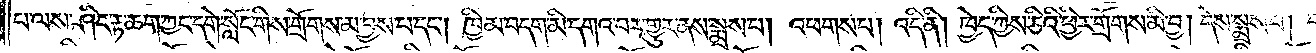པ་ལས་ཤིང་རྟ་ཆག་ཀྱང་དགེ་སློང་གིས་གྲོགས་མ་བྱས་པ་དང༌། ཁྱིམ་བདག་མི་དགའ་བར་གྱུར་ནས་སྨྲས་པ། འཕགས་པ། འདི་ནི། ཁྱེད་ཀྱིས་ཅིའི་ཕྱིར་གྲོགས་མི་བྱ། དེས་སྨྲས་པ། བཅོམ་ལྡན་
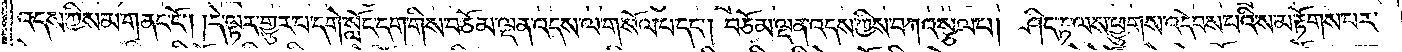འདས་ཀྱིས་མ་གནང་ངོ༌། །དེ་ལྟར་གྱུར་པ་དགེ་སློང་དག་གིས་བཅོམ་ལྡན་འདས་ལ་གསོལ་པ་དང༌། བཅོམ་ལྡན་འདས་ཀྱིས་བཀའ་སྩལ་པ། ཤིང་རྟ་ལས་ཕྱུགས་འདེབས་པའི་ས་མ་རྟོགས་པར་
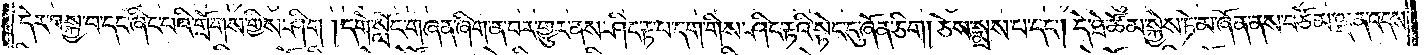དེར་བསྐྱ་བ་དང་ཞིང་པའི་གྲོགས་གྱིས་ཤིག །དགེ་སློང་གཞན་ཞིག་ན་བར་གྱུར་ནས་ཤིང་རྟ་པ་དག་གིས་ཤིང་རྟའི་སྟེང་དུ་ཞོན་ཅིག། ཅེས་སྨྲས་པ་དང༌། དེ་ཐེ་ཚོམ་སྐྱེས་ཏེ་མ་ཞོན་ནས་བཅོམ་ལྡན་འདས་
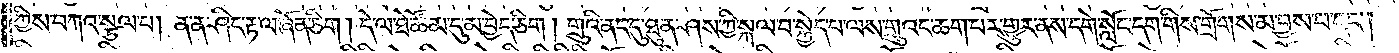ཀྱིས་བཀའ་སྩལ་པ། ན་ན་ཤིང་རྟ་ལ་ཞོན་ཅིག །དེ་ལ་ཐེ་ཚོམ་དུ་མ་བྱེད་ཅིག །གྲུའི་ནང་དུ་ཐུན་ཤས་ཀྱི་སྐལ་བ་སྐྱེད་པ་ལས་གྲུའང་ཆག་པར་གྱུར་ནས་དགེ་སློང་དག་གིས་གྲོགས་མ་བྱས་པ་དང༌།
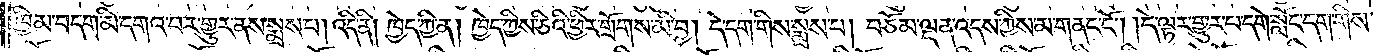ཁྱིམ་བདག་མི་དགའ་བར་གྱུར་ནས་སྨྲས་པ། འདི་ནི། ཁྱེད་ཀྱི་ན། ཁྱེད་ཀྱིས་ཅིའི་ཕྱིར་གྲོགས་མི་བྱ། དེ་དག་གིས་སྨྲས་པ། བཅོམ་ལྡན་འདས་ཀྱིས་མ་གནང་ངོ༌། །དེ་ལྟར་གྱུར་པ་དགེ་སློང་དག་གིས་
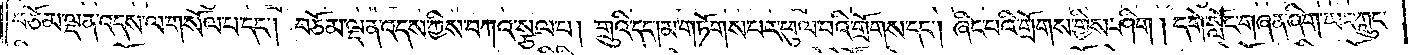བཅོམ་ལྡན་འདས་ལ་གསོལ་པ་དང༌། བཅོམ་ལྡན་འདས་ཀྱིས་བཀའ་སྩལ་པ། གྲུའི་དང༌། མ་གཏོགས་པར་ཕུལ་བའི་གྲོགས་དང༌། ཞིང་པའི་གྲོགས་གྱིས་ཤིག །དགེ་སློང་གཞན་ཞིག་ཡང་ཀླུང་
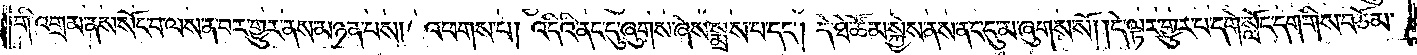གི་འགྲམ་ནས་སོང་བ་ལས་ན་བར་གྱུར་ནས་མཉན་པས། འཕགས་པ། འདིའི་ནང་དུ་ཞུགས་ཞེས་སྨྲས་པ་དང༌། དེ་ཐེ་ཚོམ་སྐྱེས་ནས་ནང་དུ་མ་ཞུགས་སོ། །དེ་ལྟར་གྱུར་བ་དགེ་སློང་དག་གིས་བཅོམ་
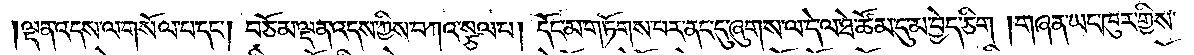ལྡན་འདས་ལ་གསོལ་པ་དང༌། བཅོམ་ལྡན་འདས་ཀྱིས་བཀའ་སྩལ་པ། དོང་མ་གཏོགས་པར་ནང་དུ་ཞུགས་ལ་དེ་ལ་ཐེ་ཚོམ་དུ་མ་བྱེད་ཅིག །གཞན་ཡང་ཁུར་གྱིས་
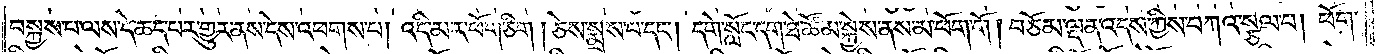བསྐྱས་པ་ལས་དེ་ཆད་པར་གྱུར་ནས་དེས་འཕགས་པ། འདི་མར་ཕོག་ཅིག །ཅེས་སྨྲས་པ་དང༌། དགེ་སློང་དག་ཐེ་ཚོམ་སྐྱེས་ནས་མ་ཕོག་གོ། བཅོམ་ལྡན་འདས་ཀྱིས་བཀའ་སྩལ་པ། ཕོག་
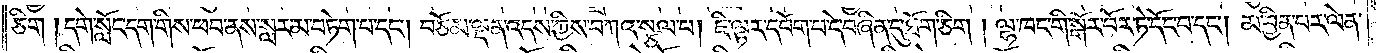ཅིག །དགེ་སློང་དག་གིས་ཕབ་ནས་སླར་མ་བཏེག་པ་དང༌། བཅོམ་ལྡན་འདས་ཀྱིས་བཀའ་སྩལ་པ། ཇི་ལྟར་དབོག་པ་དེ་བཞིན་དུ་ཐོག་ཅིག །ལྷ་ཁང་གི་སྒོར་བོར་ཏེ་དོང་བ་དང༌། མ་བྱིན་པར་ལེན་
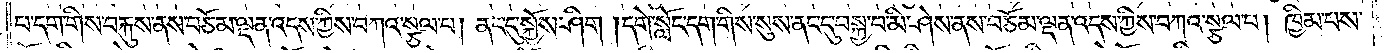པ་དག་གིས་བརྐུས་ནས་བཅོམ་ལྡན་འདས་ཀྱིས་བཀའ་སྩལ་པ། ནང་དུ་སྐྱོས་ཤིག །དགེ་སློང་དག་གིས་སུས་ནང་དུ་བསྐྱ་བ་མི་ཤེས་ནས་བཅོམ་ལྡན་འདས་ཀྱིས་བཀའ་སྩལ་པ། ཁྱིམ་པས་
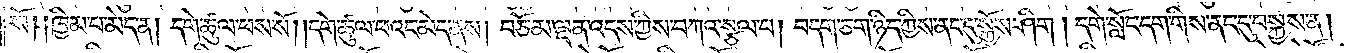སོ། །ཁྱིམ་པ་མེད་ན། དགེ་ཚུལ་ཕས་སོ། །དགེ་ཚུལ་ཕའང་མེད་ནས། བཅོམ་ལྡན་འདས་ཀྱིས་བཀའ་སྩལ་པ། བདག་ཅག་ཉིད་ཀྱིས་ནང་དུ་སྐྱོས་ཤིག། དགེ་སློང་དག་གིས་ནང་དུ་བསྐྱས་ན།
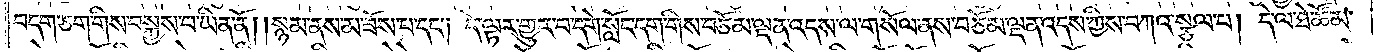བདག་ཅག་གིས་བསྐྱས་པ་ཡིན་ནོ། །སྙམ་ནས་མ་ཟོས་པ་དང༌། དེ་ལྟར་གྱུར་བ་དགེ་སློང་དག་གིས་བཅོམ་ལྡན་འདས་ལ་གསོལ་ནས་བཅོམ་ལྡན་འདས་ཀྱིས་བཀའ་སྩལ་པ། དེ་ལ་ཐེ་ཚོམ་
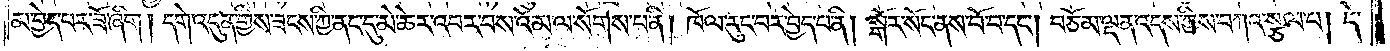མ་བྱེད་པར་ཟོ་ཞིག། དགེ་འདུན་གྱིས་ཟངས་ཀྱི་ནང་དུ་མེ་ཆེར་འབར་བས་འོ་མ་ལ་སོགས་པ་ནི། ཁོལ་རུང་བར་བྱེད་པ་ནི། སྒོར་སོང་ནས་བོ་བ་དང༌། བཅོམ་ལྡན་འདས་ཀྱིས་བཀའ་སྩལ་པ། དེ་
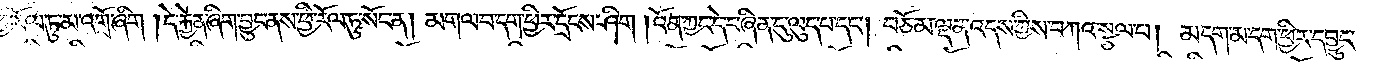ཕྱི་རོལ་ཏུ་མ་འགྲོ་ཞིག །དེ་རྐྱེན་ཞིག་བྱུང་ནས་ཕྱི་རོལ་ཏུ་སོང་ན། མགལ་བ་དག་ཕྱིར་དྲོངས་ཤིག །འོན་ཀྱང་དེ་བཞིན་དུ་ལུད་པ་དང༌། བཅོམ་ལྡན་འདས་ཀྱིས་བཀའ་སྩལ་པ། མ་དག་མ་དག་ཕྱིར་དབྱུང་
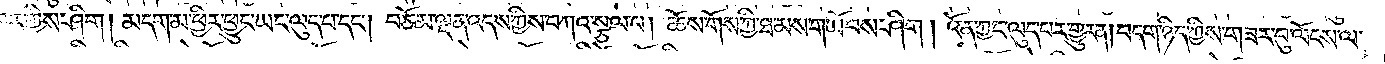བར་གྱིས་ཤིག། མདག་མ་ཕྱིར་ཕྱུང་ཡང་ལུད་པ་དང༌། བཅོམ་ལྡན་འདས་ཀྱིས་བཀའ་སྩལ་པ། ཆོས་གོས་ཀྱི་ཐ་མས་གཡོབས་ཤིག། འོན་ཀྱང་ལུད་པར་གྱུར་ན། བདག་ཉིད་ཀྱིས་གཟར་བུ་ལོངས་ལ་
